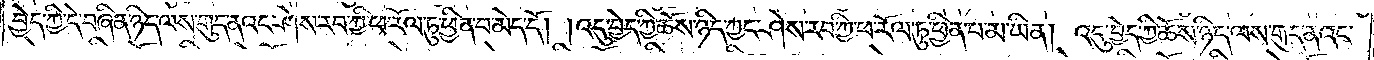བྱེད་ཀྱི་དེ་བཞིན་ཉིད་ལས་གུད་ནའང་ཤེས་རབ་ཀྱི་ཕ་རོལ་ཏུ་ཕྱིན་པ་མེད་དོ། །འདུ་བྱེད་ཀྱི་ཆོས་ཉིད་ཀྱང་ཤེས་རབ་ཀྱི་ཕ་རོལ་ཏུ་ཕྱིན་པ་མ་ཡིན། འདུ་བྱེད་ཀྱི་ཆོས་ཉིད་ལས་གུད་ནའང་
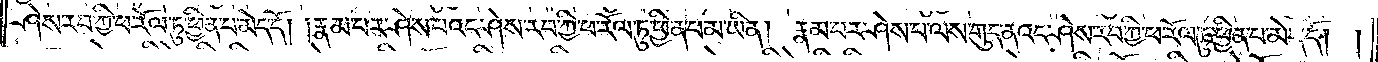ཤེས་རབ་ཀྱི་ཕ་རོལ་ཏུ་ཕྱིན་པ་མེད་དོ། །རྣམ་པར་ཤེས་པའང་ཤེས་རབ་ཀྱི་ཕ་རོལ་ཏུ་ཕྱིན་པ་མ་ཡིན། རྣམ་པར་ཤེས་པ་ལས་གུད་ནའང་ཤེས་རབ་ཀྱི་ཕ་རོལ་ཏུ་ཕྱིན་པ་མེད་དོ། །
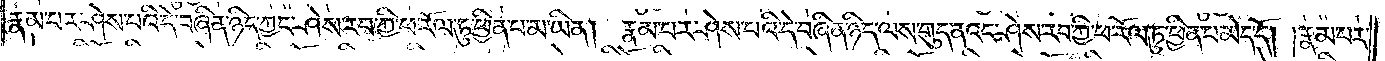རྣམ་པར་ཤེས་པའི་དེ་བཞིན་ཉིད་ཀྱང་ཤེས་རབ་ཀྱི་ཕ་རོལ་ཏུ་ཕྱིན་པ་མ་ཡིན། རྣམ་པར་ཤེས་པའི་དེ་བཞིན་ཉིད་ལས་གུད་ནའང་ཤེས་རབ་ཀྱི་ཕ་རོལ་ཏུ་ཕྱིན་པ་མེད་དོ། །རྣམ་པར་
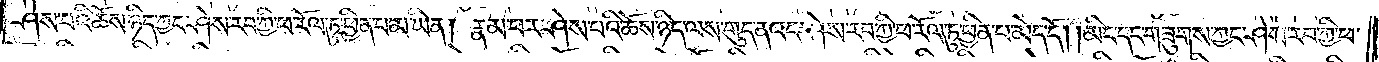ཤེས་པའི་ཆོས་ཉིད་ཀྱང་ཤེས་རབ་ཀྱི་ཕ་རོལ་ཏུ་ཕྱིན་པ་མ་ཡིན། རྣམ་པར་ཤེས་པའི་ཆོས་ཉིད་ལས་གུད་ནའང་ཤེས་རབ་ཀྱི་ཕ་རོལ་ཏུ་ཕྱིན་པ་མེད་དོ། །མིང་དང་གཟུགས་ཀྱང་ཤེས་རབ་ཀྱི་ཕ་
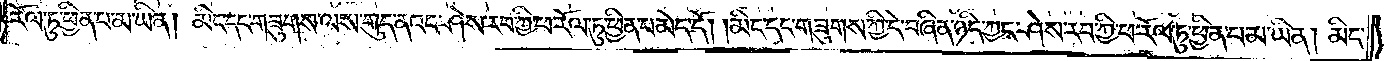རོལ་ཏུ་ཕྱིན་པ་མ་ཡིན། མིང་དང་གཟུགས་ལས་གུད་ནའང་ཤེས་རབ་ཀྱི་ཕ་རོལ་ཏུ་ཕྱིན་པ་མེད་དོ། །མིང་དང་གཟུགས་ཀྱི་དེ་བཞིན་ཉིད་ཀྱང་ཤེས་རབ་ཀྱི་ཕ་རོལ་ཏུ་ཕྱིན་པ་མ་ཡིན། མིང་
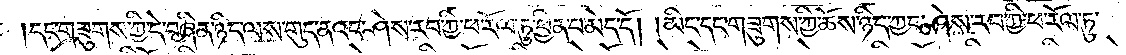དང་གཟུགས་ཀྱི་དེ་བཞིན་ཉིད་ལས་གུད་ནའང་ཤེས་རབ་ཀྱི་ཕ་རོལ་ཏུ་ཕྱིན་པ་མེད་དོ། །མིང་དང་གཟུགས་ཀྱི་ཆོས་ཉིད་ཀྱང་ཤེས་རབ་ཀྱི་ཕ་རོལ་ཏུ་
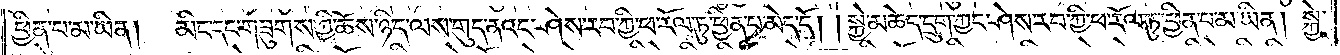ཕྱིན་པ་མ་ཡིན། མིང་དང་གཟུགས་ཀྱི་ཆོས་ཉིད་ལས་གུད་ནའང་ཤེས་རབ་ཀྱི་ཕ་རོལ་ཏུ་ཕྱིན་པ་མེད་དོ། །སྐྱེ་མཆེད་དྲུག་ཀྱང་ཤེས་རབ་ཀྱི་ཕ་རོལ་ཏུ་ཕྱིན་པ་མ་ཡིན། སྐྱེ་
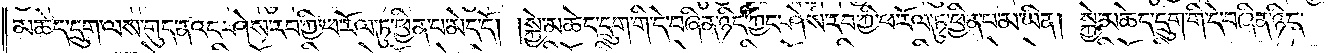མཆེད་དྲུག་ལས་གུད་ནའང་ཤེས་རབ་ཀྱི་ཕ་རོལ་ཏུ་ཕྱིན་པ་མེད་དོ། །སྐྱེ་མཆེད་དྲུག་གི་དེ་བཞིན་ཉིད་ཀྱང་ཤེས་རབ་ཀྱི་ཕ་རོལ་ཏུ་ཕྱིན་པ་མ་ཡིན། སྐྱེ་མཆེད་དྲུག་གི་དེ་བཞིན་ཉིད་
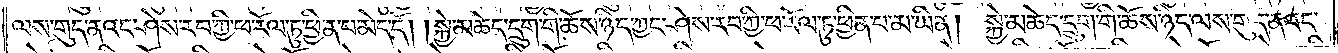ལས་གུད་ནའང་ཤེས་རབ་ཀྱི་ཕ་རོལ་ཏུ་ཕྱིན་པ་མེད་དོ། །སྐྱེ་མཆེད་དྲུག་གི་ཆོས་ཉིད་ཀྱང་ཤེས་རབ་ཀྱི་ཕ་རོལ་ཏུ་ཕྱིན་པ་མ་ཡིན། སྐྱེ་མཆེད་དྲུག་གི་ཆོས་ཉིད་ལས་གུད་ནའང་
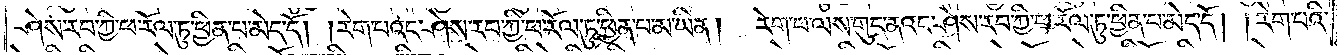ཤེས་རབ་ཀྱི་ཕ་རོལ་ཏུ་ཕྱིན་པ་མེད་དོ། །རེག་པའང་ཤེས་རབ་ཀྱི་ཕ་རོལ་ཏུ་ཕྱིན་པ་མ་ཡིན། རེག་པ་ལས་གུད་ནའང་ཤེས་རབ་ཀྱི་ཕ་རོལ་ཏུ་ཕྱིན་པ་མེད་དོ། །རེག་པའི་
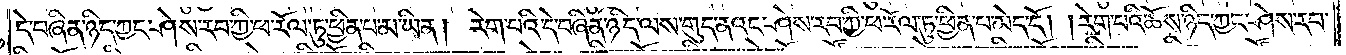དེ་བཞིན་ཉིད་ཀྱང་ཤེས་རབ་ཀྱི་ཕ་རོལ་ཏུ་ཕྱིན་པ་མ་ཡིན། རེག་པའི་དེ་བཞིན་ཉིད་ལས་གུད་ནའང་ཤེས་རབ་ཀྱི་ཕ་རོལ་ཏུ་ཕྱིན་པ་མེད་དོ། །རེག་པའི་ཆོས་ཉིད་ཀྱང་ཤེས་རབ་
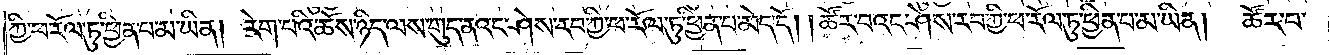ཀྱི་ཕ་རོལ་ཏུ་ཕྱིན་པ་མ་ཡིན། རེག་པའི་ཆོས་ཉིད་ལས་གུད་ནའང་ཤེས་རབ་ཀྱི་ཕ་རོལ་ཏུ་ཕྱིན་པ་མེད་དོ། །ཚོར་བའང་ཤེས་རབ་ཀྱི་ཕ་རོལ་ཏུ་ཕྱིན་པ་མ་ཡིན། ཚོར་བ་
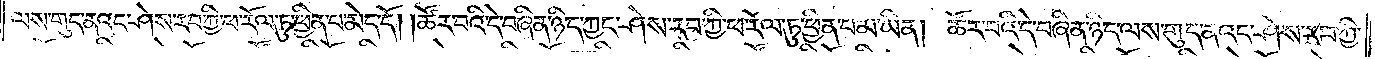ལས་གུད་ནའང་ཤེས་རབ་ཀྱི་ཕ་རོལ་ཏུ་ཕྱིན་པ་མེད་དོ། །ཚོར་བའི་དེ་བཞིན་ཉིད་ཀྱང་ཤེས་རབ་ཀྱི་ཕ་རོལ་ཏུ་ཕྱིན་པ་མ་ཡིན། ཚོར་བའི་དེ་བཞིན་ཉིད་ལས་གུད་ནའང་ཤེས་རབ་ཀྱི་
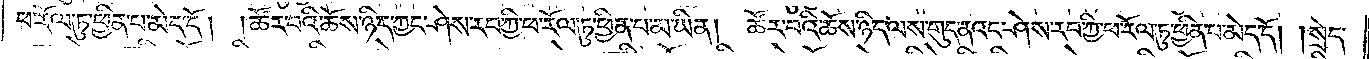ཕ་རོལ་ཏུ་ཕྱིན་པ་མེད་དོ། །ཚོར་བའི་ཆོས་ཉིད་ཀྱང་ཤེས་རབ་ཀྱི་ཕ་རོལ་ཏུ་ཕྱིན་པ་མ་ཡིན། ཚོར་བའི་ཆོས་ཉིད་ལས་གུད་ནའང་ཤེས་རབ་ཀྱི་ཕ་རོལ་ཏུ་ཕྱིན་པ་མེད་དོ། །སྲེད་
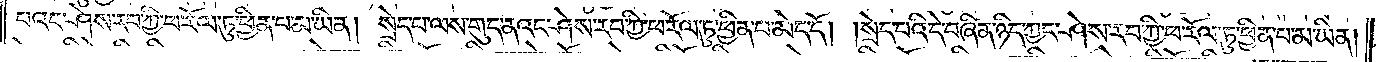པའང་ཤེས་རབ་ཀྱི་ཕ་རོལ་ཏུ་ཕྱིན་པ་མ་ཡིན། སྲེད་པ་ལས་གུད་ནའང་ཤེས་རབ་ཀྱི་ཕ་རོལ་ཏུ་ཕྱིན་པ་མེད་དོ། །སྲེད་པའི་དེ་བཞིན་ཉིད་ཀྱང་ཤེས་རབ་ཀྱི་ཕ་རོལ་ཏུ་ཕྱིན་པ་མ་ཡིན།
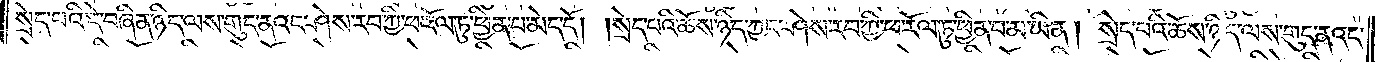སྲེད་པའི་དེ་བཞིན་ཉིད་ལས་གུད་ནའང་ཤེས་རབ་ཀྱི་ཕ་རོལ་ཏུ་ཕྱིན་པ་མེད་དོ། །སྲེད་པའི་ཆོས་ཉིད་ཀྱང་ཤེས་རབ་ཀྱི་ཕ་རོལ་ཏུ་ཕྱིན་པ་མ་ཡིན། སྲེད་པའི་ཆོས་ཉིད་ལས་གུད་ནའང་
